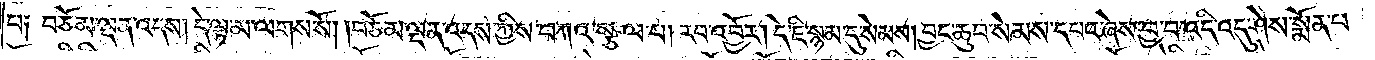པ༑ བཅོམ་ལྡན་འདས། དེ་ལྟ་མ་ལགས་སོ། །བཅོམ་ལྡན་འདས་ཀྱིས་བཀའ་སྩལ་པ། རབ་འབྱོར། དེ་ཇི་སྙམ་དུ་སེམས། བྱང་ཆུབ་སེམས་དཔའ་ཞེས་བྱ་བ་འདི་འདུ་ཤེས་སྨོན་པ་
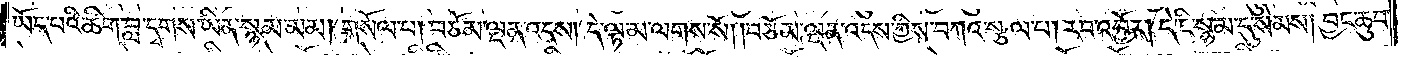ཡོད་པའི་ཚིག་བླ་དྭགས་ཡིན་སྙམ་མམ། གསོལ་པ། བཅོམ་ལྡན་འདས། དེ་ལྟ་མ་ལགས་སོ། །བཅོམ་ལྡན་འདས་ཀྱིས་བཀའ་སྩལ་པ། རབ་འབྱོར། དེ་ཇི་སྙམ་དུ་སེམས། བྱང་ཆུབ་
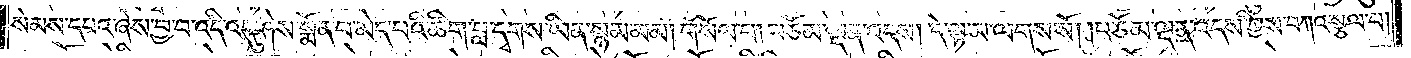སེམས་དཔའ་ཞེས་བྱ་བ་འདི་འདུ་ཤེས་སྨོན་པ་མེད་པའི་ཚིག་བླ་དྭགས་ཡིན་སྙམ་མམ། གསོལ་པ། བཅོམ་ལྡན་འདས། དེ་ལྟ་མ་ལགས་སོ། །བཅོམ་ལྡན་འདས་ཀྱིས་བཀའ་སྩལ་པ།
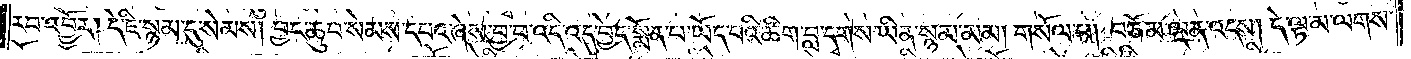རབ་འབྱོར། དེ་ཇི་སྙམ་དུ་སེམས། བྱང་ཆུབ་སེམས་དཔའ་ཞེས་བྱ་བ་འདི་འདུ་བྱེད་སྨོན་པ་ཡོད་པའི་ཚིག་བླ་དྭགས་ཡིན་སྙམ་མམ། གསོལ་པ། བཅོམ་ལྡན་འདས། དེ་ལྟ་མ་ལགས་
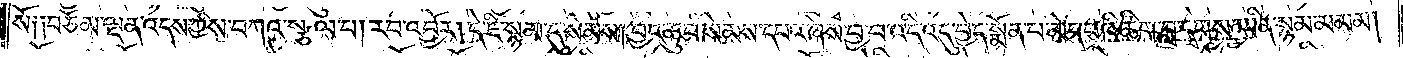སོ༑ ༑བཅོམ་ལྡན་འདས་ཀྱིས་བཀའ་སྩལ་པ། རབ་འབྱོར། དེ་ཇི་སྙམ་དུ་སེམས། བྱང་ཆུབ་སེམས་དཔའ་ཞེས་བྱ་བ་འདི་འདུ་བྱེད་སྨོན་པ་མེད་པའི་ཚིག་བླ་དྭགས་ཡིན་སྙམ་མམ་མ།
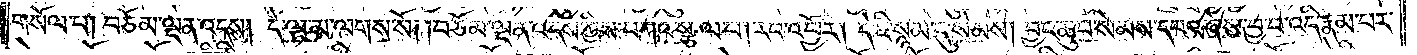གསོལ་པ། བཅོམ་ལྡན་འདས། དེ་ལྟ་མ་ལགས་སོ། །བཅོམ་ལྡན་འདས་ཀྱིས་བཀའ་སྩལ་པ། རབ་འབྱོར། དེ་ཇི་སྙམ་དུ་སེམས། བྱང་ཆུབ་སེམས་དཔའ་ཞེས་བྱ་བ་འདི་རྣམ་པར་
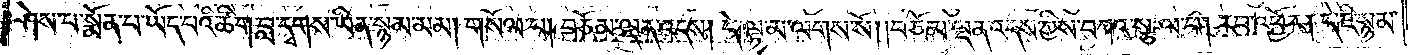ཤེས་པ་སྨོན་པ་ཡོད་པའི་ཚིག་བླ་དྭགས་ཡིན་སྙམ་མམ། གསོལ་པ། བཅོམ་ལྡན་འདས། དེ་ལྟ་མ་ལགས་སོ། །བཅོམ་ལྡན་འདས་ཀྱིས་བཀའ་སྩལ་པ། རབ་འབྱོར། དེ་ཇི་སྙམ་
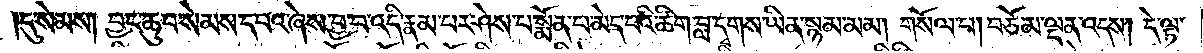དུ་སེམས། བྱང་ཆུབ་སེམས་དཔའ་ཞེས་བྱ་བ་འདི་རྣམ་པར་ཤེས་པ་སྨོན་པ་མེད་པའི་ཚིག་བླ་དྭགས་ཡིན་སྙམ་མམ། གསོལ་པ། བཅོམ་ལྡན་འདས། དེ་ལྟ་
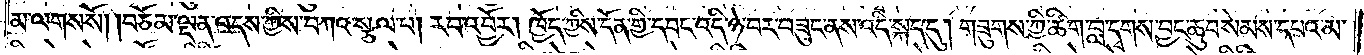མ་ལགས་སོ། །བཅོམ་ལྡན་འདས་ཀྱིས་བཀའ་སྩལ་པ། རབ་འབྱོར། ཁྱོད་ཀྱིས་དོན་གྱི་དབང་འདི་ཉེ་བར་བཟུང་ནས་འདི་སྐད་དུ། གཟུགས་ཀྱི་ཚིག་བླ་དྭགས་བྱང་ཆུབ་སེམས་དཔའ་མ་
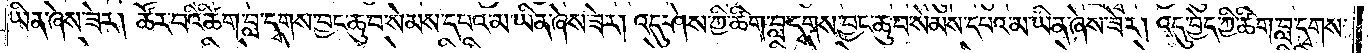ཡིན་ཞེས་ཟེར། ཚོར་བའི་ཚིག་བླ་དྭགས་བྱང་ཆུབ་སེམས་དཔའ་མ་ཡིན་ཞེས་ཟེར། འདུ་ཤེས་ཀྱི་ཚིག་བླ་དྭགས་བྱང་ཆུབ་སེམས་དཔའ་མ་ཡིན་ཞེས་ཟེར། འདུ་བྱེད་ཀྱི་ཚིག་བླ་དྭགས་
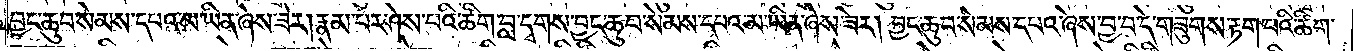བྱང་ཆུབ་སེམས་དཔའ་མ་ཡིན་ཞེས་ཟེར། རྣམ་པར་ཤེས་པའི་ཚིག་བླ་དྭགས་བྱང་ཆུབ་སེམས་དཔའ་མ་ཡིན་ཞེས་ཟེར། བྱང་ཆུབ་སེམས་དཔའ་ཞེས་བྱ་བ་དེ་གཟུགས་རྟག་པའི་ཚིག་
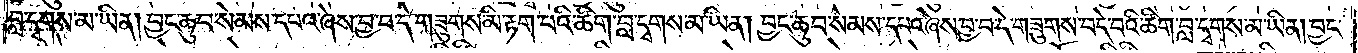བླ་དྭགས་མ་ཡིན། བྱང་ཆུབ་སེམས་དཔའ་ཞེས་བྱ་བ་དེ་གཟུགས་མི་རྟག་པའི་ཚིག་བླ་དྭགས་མ་ཡིན། བྱང་ཆུབ་སེམས་དཔའ་ཞེས་བྱ་བ་དེ་གཟུགས་བདེ་བའི་ཚིག་བླ་དྭགས་མ་ཡིན། བྱང་
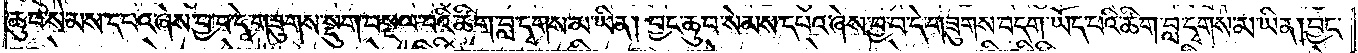ཆུབ་སེམས་དཔའ་ཞེས་བྱ་བ་དེ་གཟུགས་སྡུག་བསྔལ་བའི་ཚིག་བླ་དྭགས་མ་ཡིན། བྱང་ཆུབ་སེམས་དཔའ་ཞེས་བྱ་བ་དེ་གཟུགས་བདག་ཡོད་པའི་ཚིག་བླ་དྭགས་མ་ཡིན། བྱང་
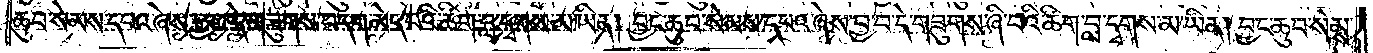ཆུབ་སེམས་དཔའ་ཞེས་བྱ་བ་དེ་གཟུགས་བདག་མེད་པའི་ཚིག་བླ་དྭགས་མ་ཡིན། བྱང་ཆུབ་སེམས་དཔའ་ཞེས་བྱ་བ་དེ་གཟུགས་ཞི་བའི་ཚིག་བླ་དྭགས་མ་ཡིན། བྱང་ཆུབ་སེམས་
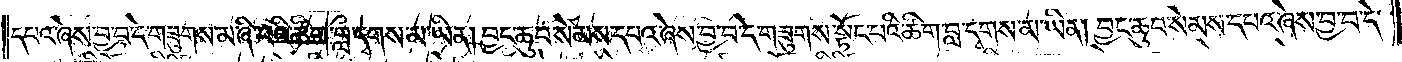དཔའ་ཞེས་བྱ་བ་དེ་གཟུགས་མ་ཞི་བའི་ཚིག་བླ་དྭགས་མ་ཡིན། བྱང་ཆུབ་སེམས་དཔའ་ཞེས་བྱ་བ་དེ་གཟུགས་སྟོང་པའི་ཚིག་བླ་དྭགས་མ་ཡིན། བྱང་ཆུབ་སེམས་དཔའ་ཞེས་བྱ་བ་དེ་
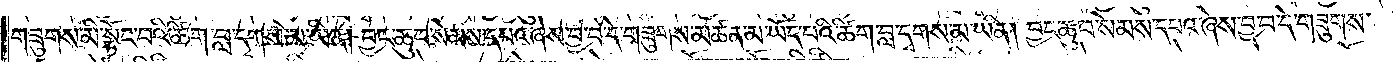གཟུགས་མི་སྟོང་བའི་ཚིག་བླ་དྭགས་མ་ཡིན། བྱང་ཆུབ་སེམས་དཔའ་ཞེས་བྱ་བ་དེ་གཟུགས་མཚན་མ་ཡོད་པའི་ཚིག་བླ་དྭགས་མ་ཡིན། བྱང་ཆུབ་སེམས་དཔའ་ཞེས་བྱ་བ་དེ་གཟུགས་
